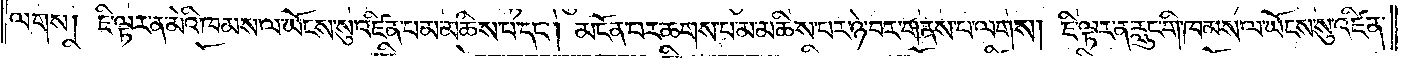ལགས། ཇི་ལྟར་ན་མེའི་ཁམས་ལ་ཡོངས་སུ་འཛིན་པ་མ་མཆིས་པ་དང༌། མངོན་པར་ཆགས་པ་མ་མཆིས་པར་ཉེ་བར་གནས་པ་ལགས། ཇི་ལྟར་ན་རླུང་གི་ཁམས་ལ་ཡོངས་སུ་འཛིན་
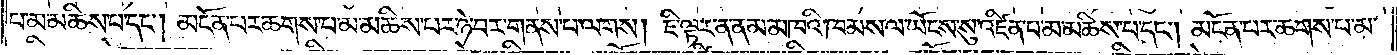པ་མ་མཆིས་པ་དང༌། མངོན་པར་ཆགས་པ་མ་མཆིས་པར་ཉེ་བར་གནས་པ་ལགས། ཇི་ལྟར་ན་ནམ་མཁའི་ཁམས་ལ་ཡོངས་སུ་འཛིན་པ་མ་མཆིས་པ་དང༌། མངོན་པར་ཆགས་པ་མ་
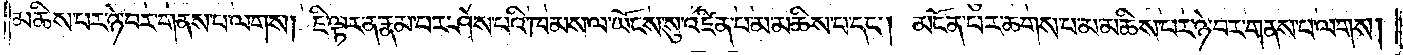མཆིས་པར་ཉེ་བར་གནས་པ་ལགས། ཇི་ལྟར་ན་རྣམ་པར་ཤེས་པའི་ཁམས་ལ་ཡོངས་སུ་འཛིན་པ་མ་མཆིས་པ་དང༌། མངོན་པར་ཆགས་པ་མ་མཆིས་པར་ཉེ་བར་གནས་པ་ལགས།
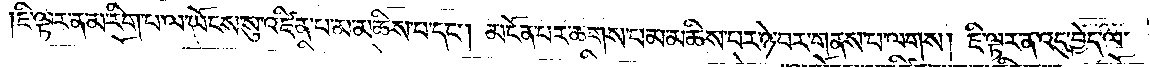ཇི་ལྟར་ན་མ་རིག་པ་ལ་ཡོངས་སུ་འཛིན་པ་མ་མཆིས་པ་དང༌། མངོན་པར་ཆགས་པ་མ་མཆིས་པར་ཉེ་བར་གནས་པ་ལགས། ཇི་ལྟར་ན་འདུ་བྱེད་ལ་
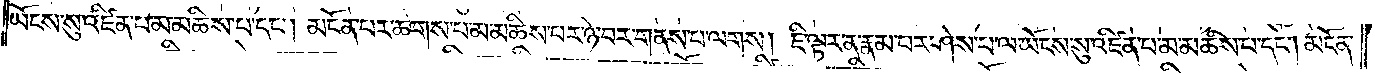ཡོངས་སུ་འཛིན་པ་མ་མཆིས་པ་དང༌། མངོན་པར་ཆགས་པ་མ་མཆིས་པར་ཉེ་བར་གནས་པ་ལགས། ཇི་ལྟར་ན་རྣམ་པར་ཤེས་པ་ལ་ཡོངས་སུ་འཛིན་པ་མ་མཆིས་པ་དང༌། མངོན་
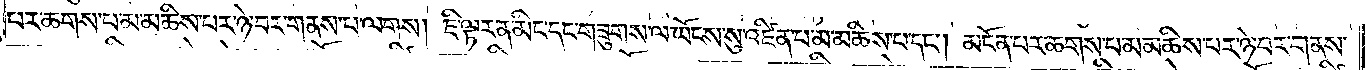པར་ཆགས་པ་མ་མཆིས་པར་ཉེ་བར་གནས་པ་ལགས། ཇི་ལྟར་ན་མིང་དང་གཟུགས་ལ་ཡོངས་སུ་འཛིན་པ་མ་མཆིས་པ་དང༌། མངོན་པར་ཆགས་པ་མ་མཆིས་པར་ཉེ་བར་གནས་
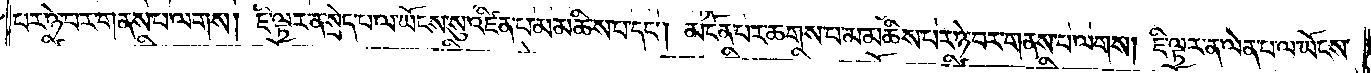པར་ཉེ་བར་གནས་པ་ལགས། ཇི་ལྟར་ན་སྲེད་པ་ལ་ཡོངས་སུ་འཛིན་པ་མ་མཆིས་པ་དང༌། མངོན་པར་ཆགས་པ་མ་མཆིས་པར་ཉེ་བར་གནས་པ་ལགས། ཇི་ལྟར་ན་ལེན་པ་ལ་ཡོངས་
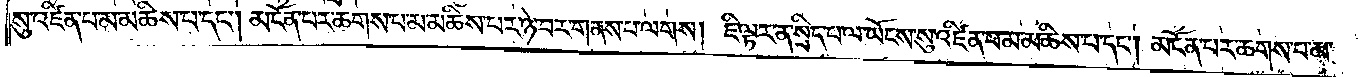སུ་འཛིན་པ་མ་མཆིས་པ་དང༌། མངོན་པར་ཆགས་པ་མ་མཆིས་པར་ཉེ་བར་གནས་པ་ལགས། ཇི་ལྟར་ན་སྲིད་པ་ལ་ཡོངས་སུ་འཛིན་པ་མ་མཆིས་པ་དང༌། མངོན་པར་ཆགས་པ་མ་
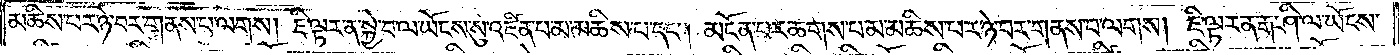མཆིས་པར་ཉེ་བར་གནས་པ་ལགས། ཇི་ལྟར་ན་སྐྱེ་བ་ལ་ཡོངས་སུ་འཛིན་པ་མ་མཆིས་པ་དང༌། མངོན་པར་ཆགས་པ་མ་མཆིས་པར་ཉེ་བར་གནས་པ་ལགས། ཇི་ལྟར་ན་རྒ་ཤི་ལ་ཡོངས་
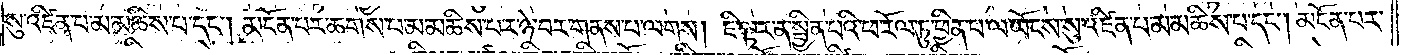སུ་འཛིན་པ་མ་མཆིས་པ་དང༌། མངོན་པར་ཆགས་པ་མ་མཆིས་པར་ཉེ་བར་གནས་པ་ལགས། ཇི་ལྟར་ན་སྦྱིན་པའི་ཕ་རོལ་ཏུ་ཕྱིན་པ་ལ་ཡོངས་སུ་འཛིན་པ་མ་མཆིས་པ་དང༌། མངོན་པར་
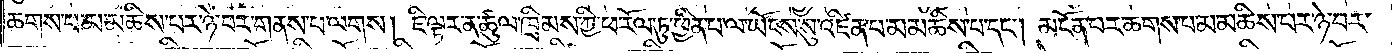ཆགས་པ་མ་མཆིས་པར་ཉེ་བར་གནས་པ་ལགས། ཇི་ལྟར་ན་ཚུལ་ཁྲིམས་ཀྱི་ཕ་རོལ་ཏུ་ཕྱིན་པ་ལ་ཡོངས་སུ་འཛིན་པ་མ་མཆིས་པ་དང༌། མངོན་པར་ཆགས་པ་མ་མཆིས་པར་ཉེ་བར་
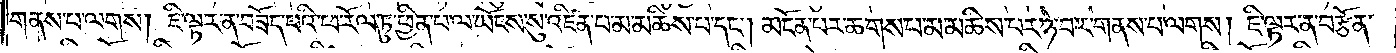གནས་པ་ལགས། ཇི་ལྟར་ན་བཟོད་པའི་ཕ་རོལ་ཏུ་ཕྱིན་པ་ལ་ཡོངས་སུ་འཛིན་པ་མ་མཆིས་པ་དང༌། མངོན་པར་ཆགས་པ་མ་མཆིས་པར་ཉེ་བར་གནས་པ་ལགས། ཇི་ལྟར་ན་བརྩོན་
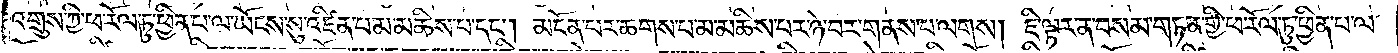འགྲུས་ཀྱི་ཕ་རོལ་ཏུ་ཕྱིན་པ་ལ་ཡོངས་སུ་འཛིན་པ་མ་མཆིས་པ་དང༌། མངོན་པར་ཆགས་པ་མ་མཆིས་པར་ཉེ་བར་གནས་པ་ལགས། ཇི་ལྟར་ན་བསམ་གཏན་གྱི་ཕ་རོལ་ཏུ་ཕྱིན་པ་ལ་
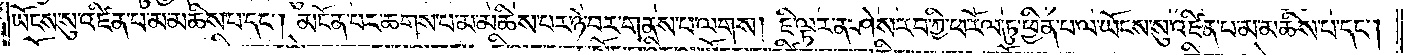ཡོངས་སུ་འཛིན་པ་མ་མཆིས་པ་དང༌། མངོན་པར་ཆགས་པ་མ་མཆིས་པར་ཉེ་བར་གནས་པ་ལགས། ཇི་ལྟར་ན་ཤེས་རབ་ཀྱི་ཕ་རོལ་ཏུ་ཕྱིན་པ་ལ་ཡོངས་སུ་འཛིན་པ་མ་མཆིས་པ་དང༌།
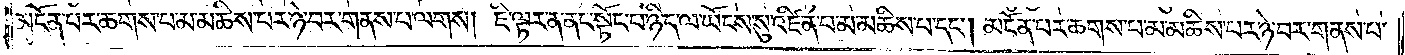མངོན་པར་ཆགས་པ་མ་མཆིས་པར་ཉེ་བར་གནས་པ་ལགས། ཇི་ལྟར་ན་ནང་སྟོང་པ་ཉིད་ལ་ཡོངས་སུ་འཛིན་པ་མ་མཆིས་པ་དང༌། མངོན་པར་ཆགས་པ་མ་མཆིས་པར་ཉེ་བར་གནས་པ་
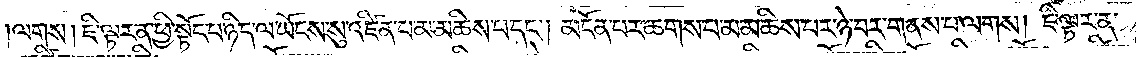ལགས། ཇི་ལྟར་ན་ཕྱི་སྟོང་པ་ཉིད་ལ་ཡོངས་སུ་འཛིན་པ་མ་མཆིས་པ་དང༌། མངོན་པར་ཆགས་པ་མ་མཆིས་པར་ཉེ་བར་གནས་པ་ལགས། ཇི་ལྟར་ན་
